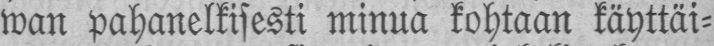wän pahanelkisesti minua kohtaan käyttäi-
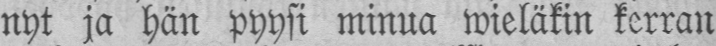nyt ja hän pyysi minua wieläkin kerran
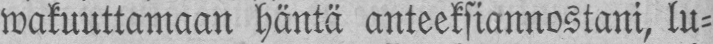wakuuttamaan häntä anteeksiannostani, lu-
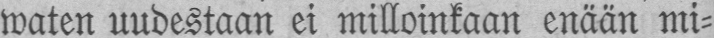waten uudestaan ei milloinkaan enään mi-
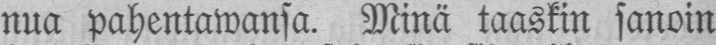nua pahentawansa. Minä taaskin sanoin
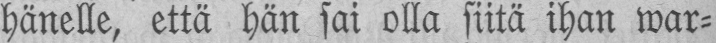hänelle, että hän sai olla siitä ihan war-
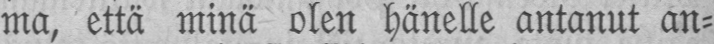ma, että minä olen hänelle antanut an-
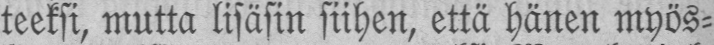teeksi, mutta lisäsin siihen, että hänen myös-
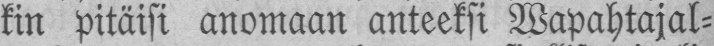kin pitäisi anomaan anteeksi Wapahtajal-
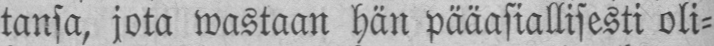tansa, jota wastaan hän pääasiallisesti oli-
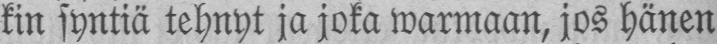kin syntiä tehnyt ja joka warmaan, jos hänen
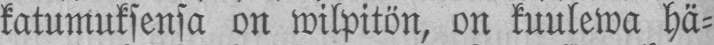katumuksensa on wilpitön, on kuulewa hä-
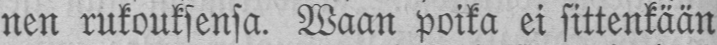nen rukouksensa. Waan poika ei sittenkään
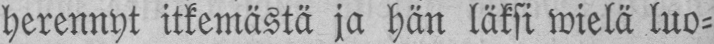herennyt itkemästä ja hän läksi wielä luo-
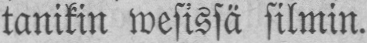tanikin wesissä silmin.
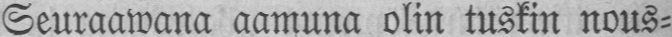Seuraawana aamuna olin tuskin nous-
